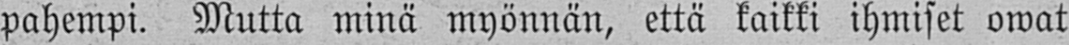pahempi. Mutta minä myönnän, että kaikki ihmiset owat
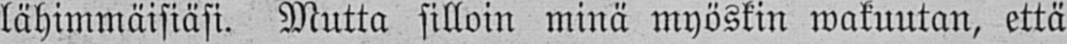lähimmäisiäsi. Mutta silloin minä myöskin wakuutan, että
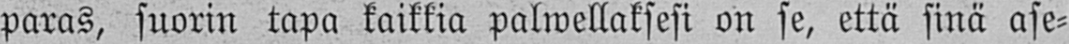paras, suorin tapa kaikkia palwellaksesi on se, että sinä ase-
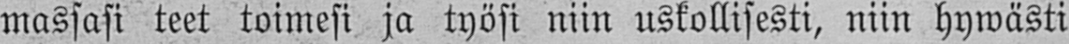massasi teet toimesi ja työsi niin uskollisesti, niin hywästi
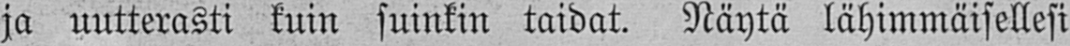ja uutterasti kuin suinkin taidat. Näytä lähimmäisellesi
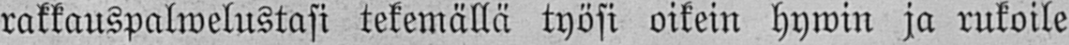rakkauspalwelustasi tekemällä työsi oikein hywin ja rukoile
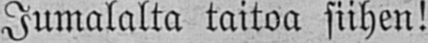Jumalalta taitoa siihen!
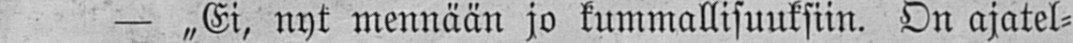- „Ei, nyt mennään jo kummallisuuksiin. On ajatel-
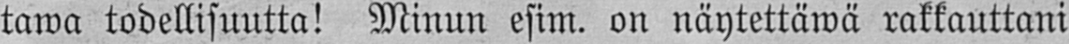tawa todellisuutta! Minun esim. on näytettäwä rakkauttani
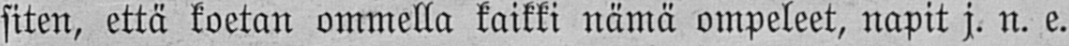siten, että koetan ommella kaikki nämä ompeleet, napit j. n. e.
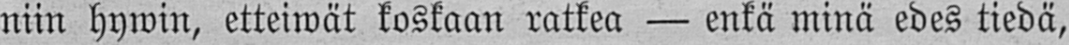niin hywin, etteiwät koskaan ratkea - enkä minä edes tiedä,
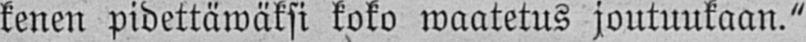kenen pidettäwäksi koko waatetus joutuukaan."
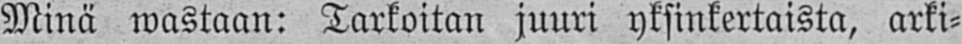Minä wastaan: Tarkoitan juuri yksinkertaista, arki-
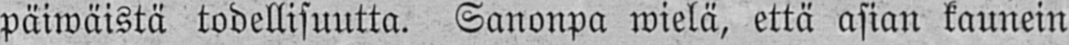päiwäistä todellisuutta. Sanonpa wielä, että asian kaunein
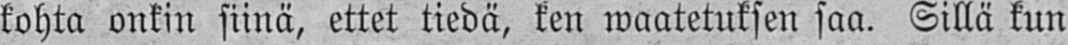kohta onkin siinä, ettet tiedä, ken waatetuksen saa. Sillä kun
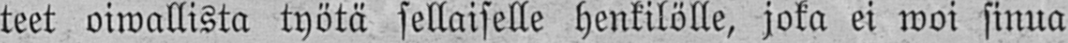teet oiwallista työtä sellaiselle henkilölle, joka ei woi sinua
